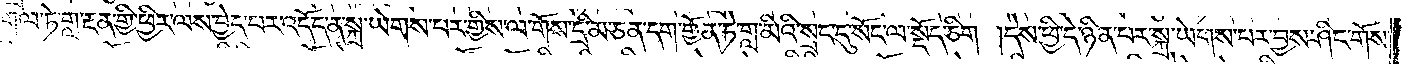གལ་ཏེ་གླ་རྔན་གྱི་ཕྱིར་ལས་བྱེད་པར་འདོད་ན་སྐྲ་ཡེགས་པར་གྱིས་ལ་གོས་དྲི་མ་ཅན་དག་གྱོན་ཏེ་གླ་མིའི་སྲང་དུ་སོང་ལ་སྡོད་ཅིག །དེས་ཕྱི་དེ་ཉིན་པར་སྐྲ་ཡེགས་པར་བྱས་ཤིང་གོས་
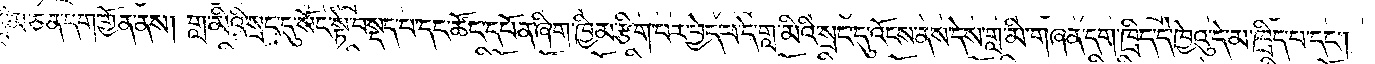དྲི་མ་ཅན་དག་གྱོན་ནས། གླ་མིའི་སྲང་དུ་སོང་སྟེ་བསྡད་པ་དང་ཚོང་དཔོན་ཞིག་ཁྱིམ་རྩིག་པར་བྱེད་པ་དེ་གླ་མིའི་སྲང་དུ་འོངས་ནས་དེས་གླ་མི་གཞན་དག་ཁྲིད་དེ་ཁྱེའུ་དེ་མ་ཁྲིད་པ་དང༌།
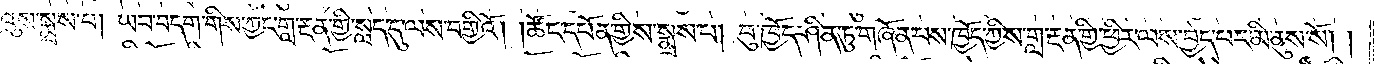ཁྱེའུས་སྨྲས་པ། ཡབ་བདག་གིས་ཀྱང་གླ་རྔན་གྱི་སླད་དུ་ལས་བགྱིའོ། །ཚོང་དཔོན་གྱིས་སྨྲས་པ། བུ་ཁྱོད་ཤིན་ཏུ་གཞོན་པས་ཁྱོད་ཀྱིས་གླ་རྔན་གྱི་ཕྱིར་ལས་བྱེད་པར་མི་ནུས་སོ། །
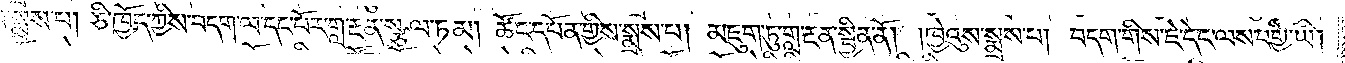ཁྱེའུས་སྨྲས་པ། ཅི་ཁྱོད་ཀྱིས་བདག་ལ་དང་པོར་གླ་རྔན་སྩལ་ཏམ། ཚོང་དཔོན་གྱིས་སྨྲས་པ། མཇུག་ཏུ་གླ་རྔན་སྦྱིན་ནོ། །ཁྱེའུས་སྨྲས་པ། བདག་གིས་ཇེ་དེང་ལས་བགྱི་ཡི།
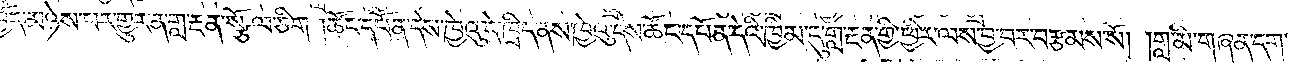གལ་ཏེ་ཁྱོད་མཉེས་པར་གྱུར་ན་གླ་རྔན་སྩོལ་ཅིག །ཚོང་དཔོན་དེས་ཁྱེའུ་དེ་ཁྲིད་ནས་ཁྱེའུ་དེས་ཚོང་དཔོན་དེའི་ཁྱིམ་དུ་གླ་རྔན་གྱི་ཕྱིར་ལས་བྱ་བར་བརྩམས་སོ། །གླ་མི་གཞན་དག་
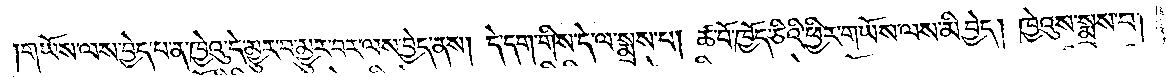གཡོས་ལས་བྱེད་པ་ན་ཁྱེའུ་དེ་མྱུར་བ་མྱུར་བར་ལས་བྱེད་ནས། དེ་དག་གིས་དེ་ལ་སྨྲས་པ། ཚ་བོ་ཁྱོད་ཅིའི་ཕྱིར་གཡོས་ལས་མི་བྱེད། ཁྱེའུས་སྨྲས་པ།
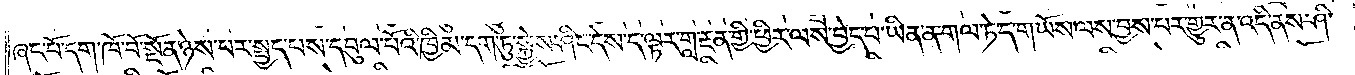ཞང་པོ་དག་ཁོ་བོ་སྔོན་ཉེས་པར་སྤྱད་པས་དབུལ་པོའི་ཁྱིམ་དག་ཏུ་སྐྱེས་ཤིང་དེས་ད་ལྟར་གླ་རྔན་གྱི་ཕྱིར་ལས་བྱེད་པ་ཡིན་ན་གལ་ཏེ་ད་གཡོས་ལས་བྱས་པར་གྱུར་ན་འདི་ནས་ཤི་
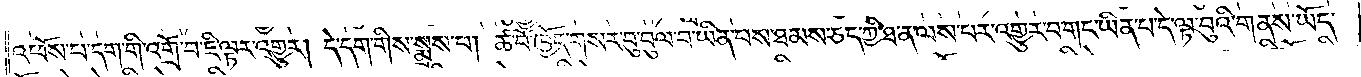འཕོས་པ་དག་གི་འགྲོ་བ་ཇི་ལྟར་འགྱུར། དེ་དག་གིས་སྨྲས་པ། ཚ་བོ་ཁྱོད་གསར་བུ་བུལ་བ་ཡིན་པས་ཐམས་ཅད་ཀྱི་ཐ་ན་ལས་པར་འགྱུར་བ་གང་ཡིན་པ་དེ་ལྟ་བུའི་གནས་ཡོད་
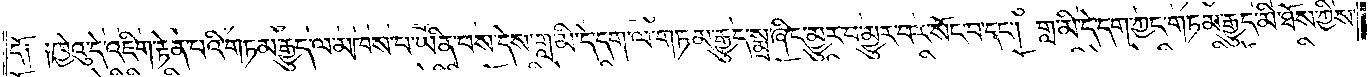དོ༑ ༑ཁྱེའུ་དེ་འཇིག་རྟེན་པའི་གཏམ་རྒྱུད་ལ་མཁས་པ་ཡིན་པས་དེས་གླ་མི་དེ་དག་ལ་གཏམ་རྒྱུད་སྨྲ་ཞིང་མྱུར་བ་མྱུར་བར་སོང་བ་དང༌། གླ་མི་དེ་དག་ཀྱང་གཏམ་རྒྱུད་མི་ཐོས་ཀྱིས་
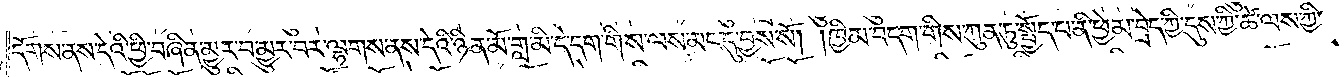དོགས་ནས་དེའི་ཕྱི་བཞིན་མྱུར་བ་མྱུར་བར་ལྷགས་ནས་དེའི་ཉིན་མོ་གླ་མི་དེ་དག་གིས་ལས་མང་དུ་བྱས་སོ། །ཁྱིམ་བདག་གིས་ཀུན་ཏུ་སྤྱོད་པ་ནི་ཕྱེ་མ་བྲེད་ཀྱི་དུས་ཀྱི་ཚེ་ལས་ཀྱི་
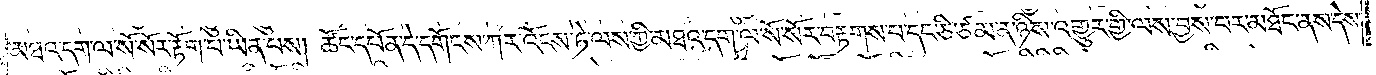མཐའ་དག་ལ་སོ་སོར་རྟོག་པ་ཡིན་པས། ཚོང་དཔོན་དེ་དགོངས་ཀར་འོངས་ཏེ་ལས་ཀྱི་མཐའ་དག་ལ་སོ་སོར་བརྟགས་པ་དང་ཅི་ཙམ་ན་ཉིས་འགྱུར་གྱི་ལས་བྱས་པར་མཐོང་ནས་དེས་
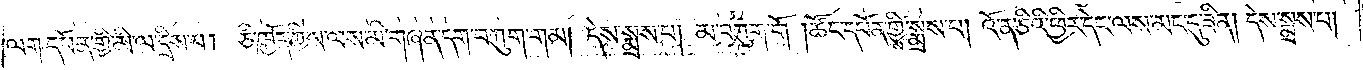ལག་དཔོན་གྱི་མི་ལ་དྲིས་པ། ཅི་ཁྱོད་ཀྱིས་ལས་མི་གཞན་དག་བཀུག་གམ། དེས་སྨྲས་པ། མ་བཀུག་གོ །ཚོང་དཔོན་གྱིས་སྨྲས་པ། འོ་ན་ཅིའི་ཕྱིར་དེང་ལས་མང་དུ་ཟིན། དེས་སྨྲས་པ། །
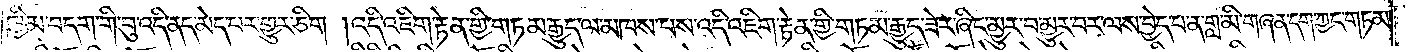ཁྱིམ་བདག་གི་བུ་འདི་ནད་མེད་པར་གྱུར་ཅིག །འདི་འཇིག་རྟེན་གྱི་གཏམ་རྒྱུད་ལ་མཁས་པས་འདི་འཇིག་རྟེན་གྱི་གཏམ་རྒྱུད་ཟེར་ཞིང་མྱུར་བར་མྱུར་བར་ལས་བྱེད་པ་ན་གླ་མི་གཞན་དག་ཀྱང་གཏམ་
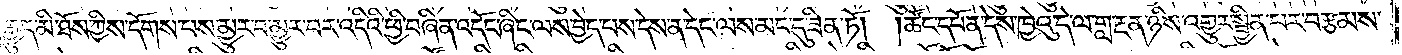རྒྱུད་མི་ཐོས་ཀྱིས་དོགས་པས་མྱུར་བ་མྱུར་བར་འདིའི་ཕྱི་བཞིན་འདོང་ཞིང་ལས་བྱེད་པས་དེས་ན་དེང་ལས་མང་དུ་ཟིན་ཏོ། །ཚོང་དཔོན་དེས་ཁྱེའུ་དེ་ལ་གླ་རྔན་ཉིས་འགྱུར་སྦྱིན་པར་བརྩམས་
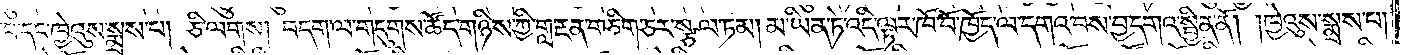པ་དང་ཁྱེའུས་སྨྲས་པ། ཅི་ལགས། བདག་ལ་གདུགས་ཚོད་གཉིས་ཀྱི་གླ་རྔན་གཅིག་ཅར་སྩལ་ཏམ། མ་ཡིན་ཏེ་འདི་ལྟར་ཁོ་བོ་ཁྱོད་ལ་དགའ་བས་བྱ་དགའ་སྦྱིན་ནོ། །ཁྱེའུས་སྨྲས་པ།
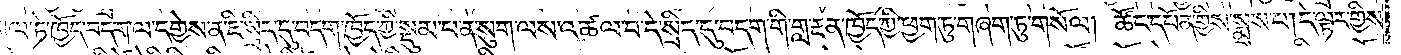གལ་ཏེ་ཁྱོད་བདག་ལ་དགྱེས་ན་ཇི་སྲིད་དུ་བདག་ཁྱོད་ཀྱི་སྡུམ་པ་ན་སུག་ལས་འཚལ་བ་དེ་སྲིད་དུ་བདག་གི་གླ་རྔན་ཁྱོད་ཀྱི་ཕྱག་ཏུ་གཞག་ཏུ་གསོལ། ཚོང་དཔོན་གྱིས་སྨྲས་པ། དེ་ལྟར་གྱིས་
